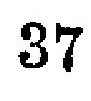37
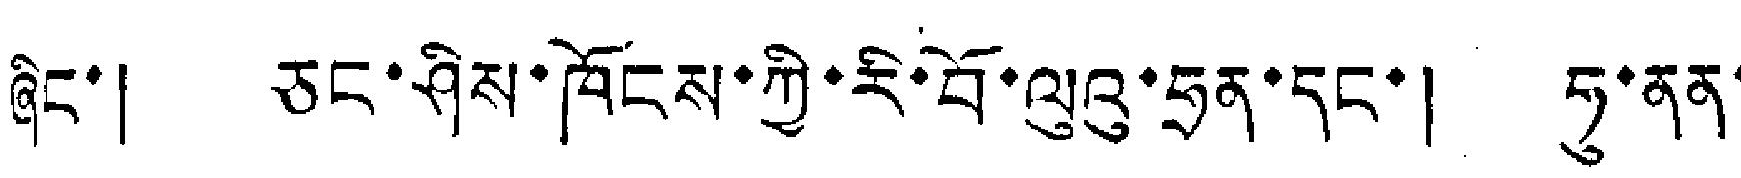ཞིང་། ཅང་ཤིས་ཁོངས་ཀྱི་རི་བོ་ལུའུ་ཧྲན་དང་། ཧུ་ནན་
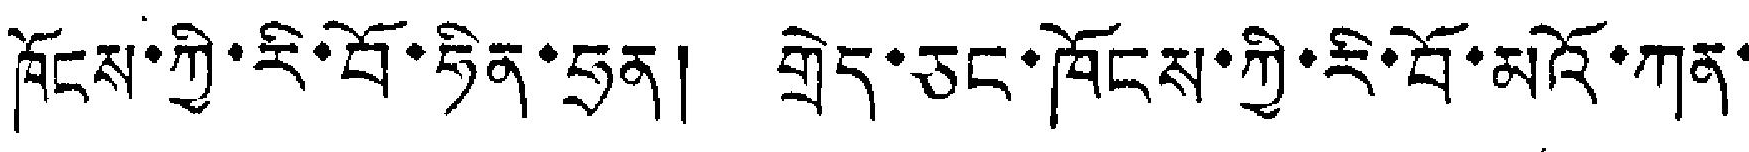ཁོངས་ཀྱི་རི་བོ་ཧིན་ཧྲན། གྲེད་ཅང་ཁོངས་ཀྱི་རི་བོ་མའོ་ཀན་
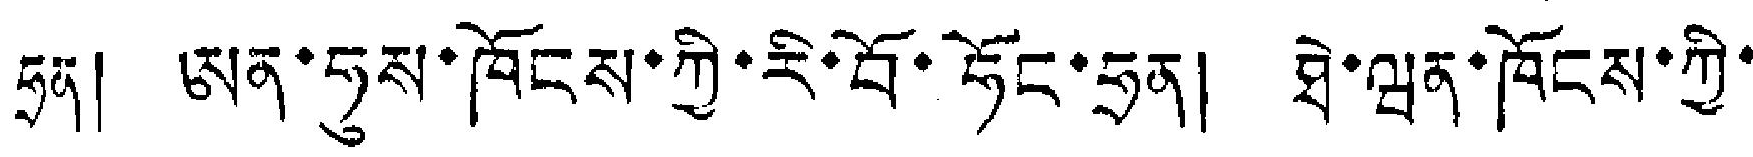ཧྲན། ཨན་ཧུས་ཁོངས་ཀྱི་རི་བོ་ཧོང་ཧྲན། ཐེ་ཝན་ཁོངས་ཀྱི་
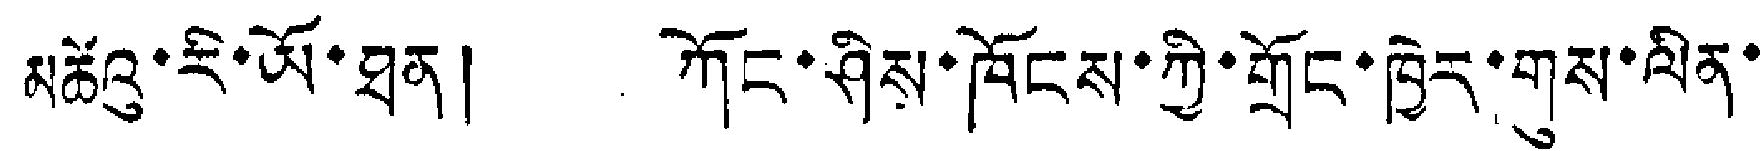མཚོའུ་རི་ཡོ་ཐན། ཀོང་ཤིས་ཁོངས་ཀྱི་གྲོང་ཁྱེར་གུས་ལིན་
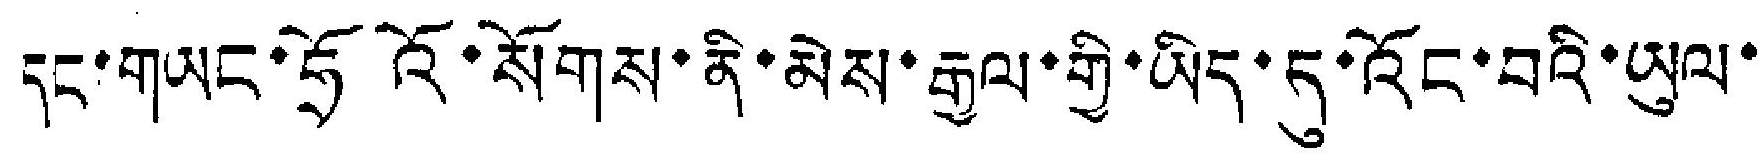དང་གཡང་ཧྲོའོ་སོགས་ནི་མེས་རྒྱལ་གྱི་ཡིད་དུ་འོང་བའི་ཡུལ་
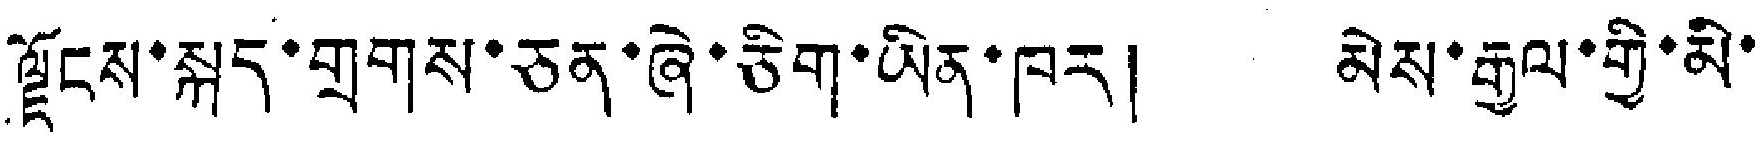ལྗོངས་སྐད་གྲགས་ཅན་ཞེ་ཅིག་ཡིན་ཁར། མེས་རྒྱལ་གྱི་མི་
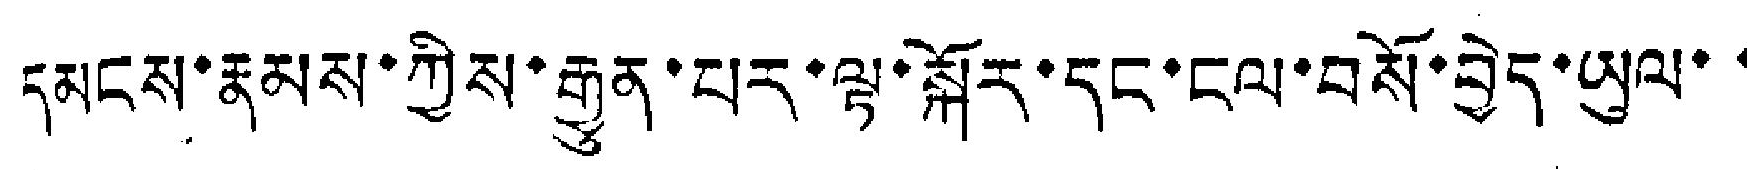དམངས་རྣམས་ཀྱིས་རྒྱུན་པར་ལྟ་སྐོར་དང་ངལ་བསོ་བྱེད་ཡུལ་་
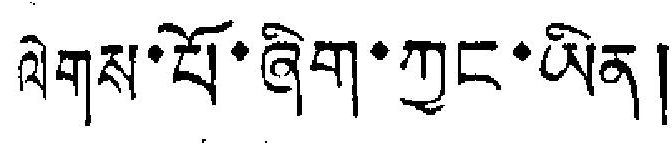ལེགས་པོ་ཞིག་ཀྱང་ཡིན།
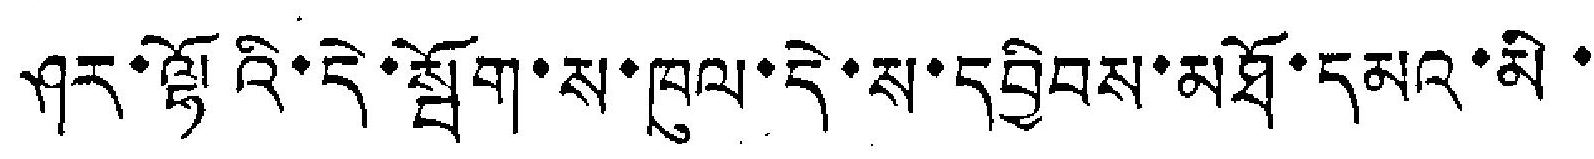ཤར་ལྟོའི་དེ་སྦོག་ས་ཁུལ་དེ་ས་དབྱིབས་མཐོ་དམའ་མི་
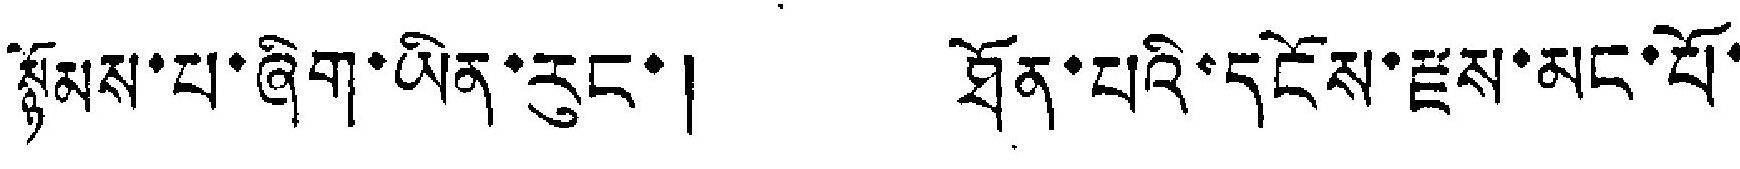སྙོམས་པ་ཞིག་ཡིན་རུང་། ཐོན་པའི་དངོས་རྫས་མང་པོ་
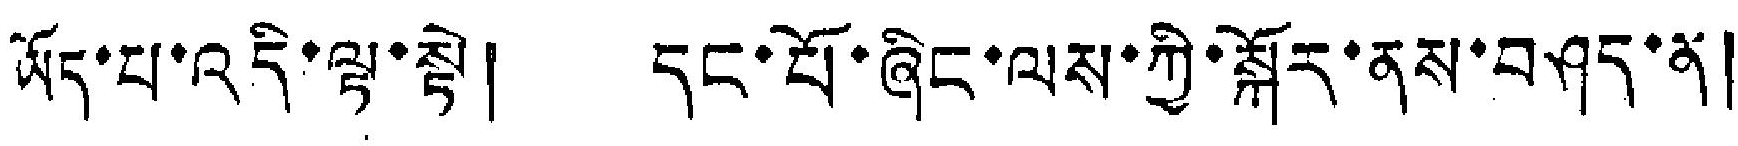ཡོད་པ་འདི་ལྟ་སྟེ། དང་པོ་ཞིང་ལས་ཀྱི་སྐོར་ནས་བཤད་ན།
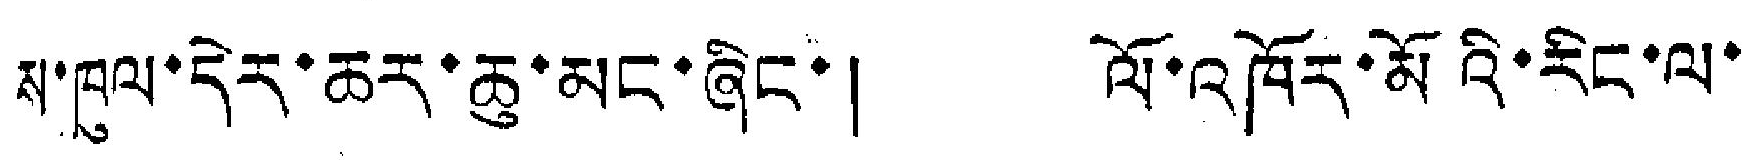ས་ཁུལ་དེར་ཆར་ཆུ་མང་ཞིང་། ལོ་འཁོར་མོའི་རིང་ལ་
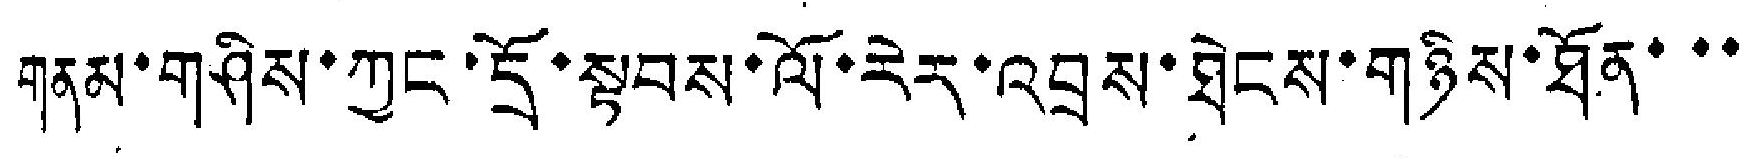གནམ་གཤིས་ཀྱང་དྲོ་སྟབས་ལོ་རེར་འབྲས་ཐེངས་གཉིས་ཐོན་་་
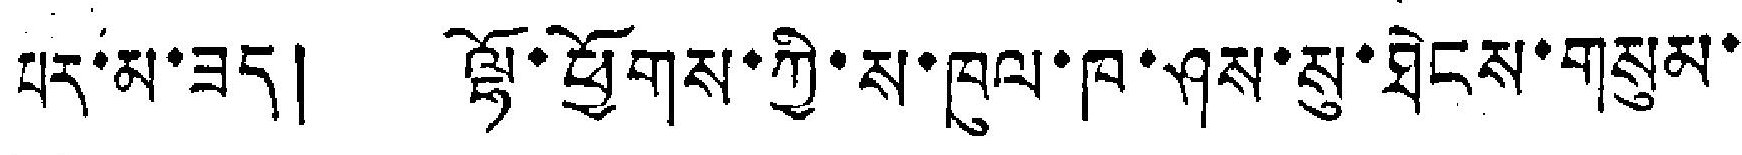པར་མ་ཟད། ལྷོ་ཕྱོགས་ཀྱི་ས་ཁུལ་ཁ་ཤས་སུ་ཐེངས་གསུམ་
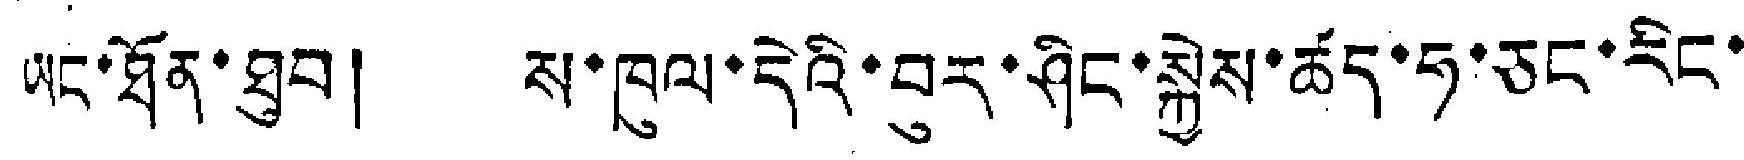ཡང་ཐོན་ཐུབ། ས་ཁུལ་དེའི་བུར་ཤིང་སྐྱེས་ཚད་ཧ་ཅང་རིང་
